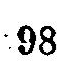98
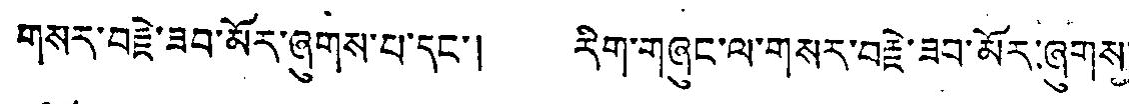གསར་བརྗེ་ཟབ་མོར་ཞུགས་པ་དང་། རིག་གཞུང་ལ་གསར་བརྗེ་ཟབ་མོར་ཞུགས་
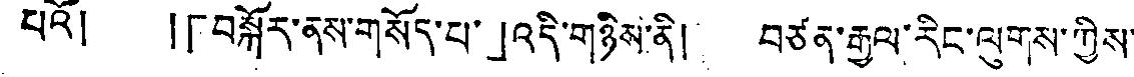པའོ། །「བསྐོར་ནས་གསོད་པ་」འདི་གཉིས་ནི། བཙན་རྒྱལ་རིང་ལུགས་ཀྱིས་
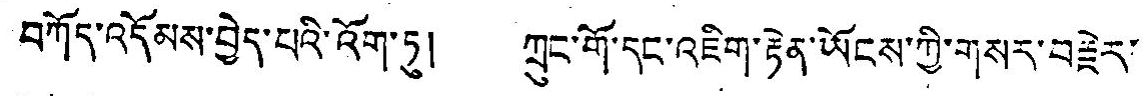བཀོད་འདོམས་བྱེད་པའི་འོག་ཏུ། ཀྲུང་གོ་དང་འཇིག་རྟེན་ཡོངས་ཀྱི་གསར་བརྗེར་
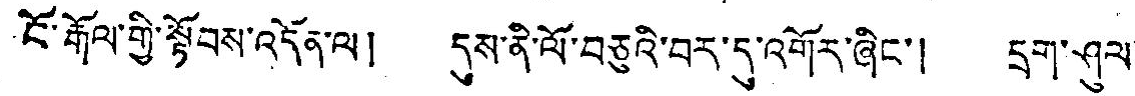ངོ་རྒོལ་གྱི་སྟོབས་འདོན་ལ། དུས་ནི་ལོ་བཅུའི་བར་དུ་འགོར་ཞིང་། དྲག་ཤུལ་
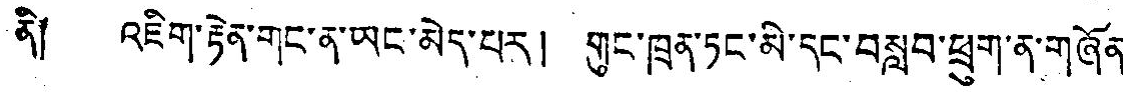ནི། འཇིག་རྟེན་གང་ན་ཡང་མེད་པར། གུང་ཁྲན་ཏང་མི་དང་བསླབ་ཕྲུག་ན་གཞོན་
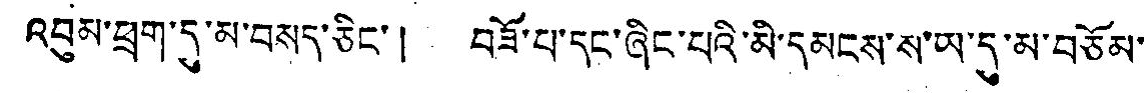འབུམ་ཕྲག་དུ་མ་བསད་ཅིང་། བཟོ་པ་དང་ཞིང་པའི་མི་དམངས་ས་ཡ་དུ་མ་བཅོམ་
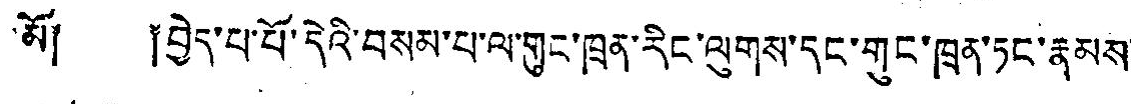མོ། ༐བྱེད་པ་པོ་དེའི་བསམ་པ་ལ་གུང་ཁྲན་རིང་ལུགས་དང་གུང་ཁྲན་ཏང་རྣམས་
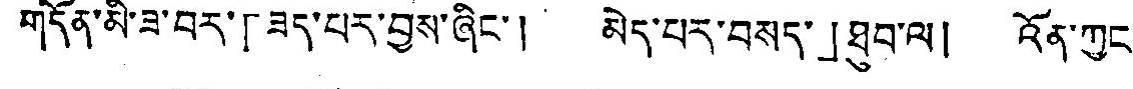གདོན་མི་ཟ་བར་「ཟད་པར་བྱས་ཞིང་། མེད་པར་བསད་」ཐུབ་ལ། འོན་ཀྱང་
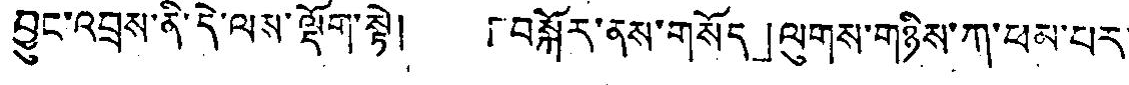བྱུང་འབྲས་ནི་དེ་ལས་ལྡོག་སྟེ། 「བསྐོར་ནས་གསོད」ལུགས་གཉིས་ཀ་ཕམ་པར་
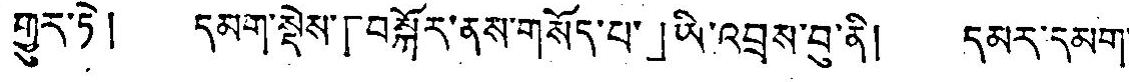གྱུར་ཏེ། དམག་སྡེས་「བསྐོར་ནས་གསོད་པ་」ཡི་འབྲས་བུ་ནི། དམར་དམག་
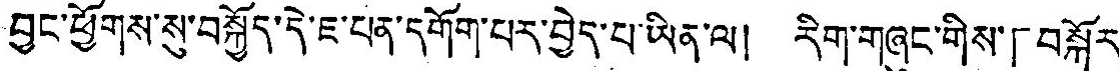བྱང་ཕྱོགས་སུ་བསྐྱོད་དེ་ཇ་པན་དགོག་པར་བྱེད་པ་ཡིན་ལ། རིག་གཞུང་གིས་「བསྐོར་
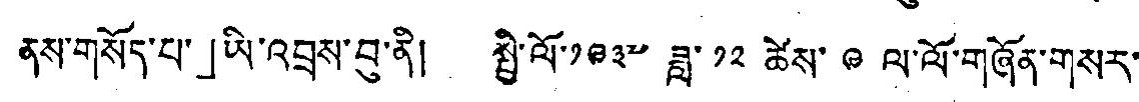ནས་གསོད་པ་」ཡི་འབྲས་བུ་ནི། སྤྱི་ལོ་༡༩༣༧ ཟླ་ ༡༢ ཚེས་ ༩ ལ་ལོ་གཞོན་གསར་
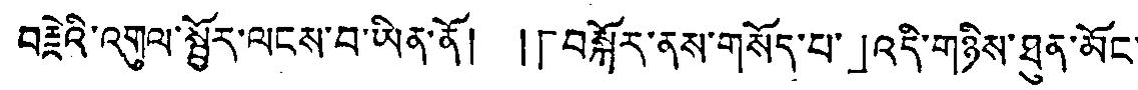བརྗེའི་འགུལ་སྦྱོར་ལངས་བ་ཡིན་ནོ། །「བསྐོར་ནས་གསོད་པ་」འདི་གཉིས་ཐུན་མོང་
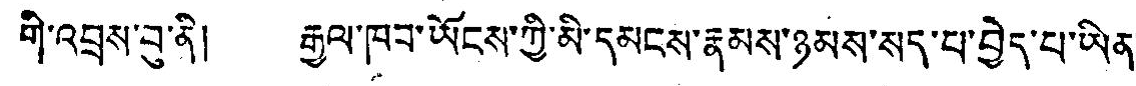གི་འབྲས་བུ་ནི། རྒྱལ་ཁབ་ཡོངས་ཀྱི་མི་དམངས་རྣམས་ཉམས་སད་པ་བྱེད་པ་ཡིན་
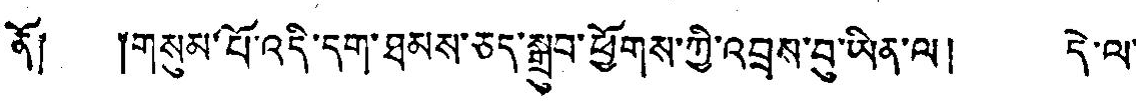ནོ༐ ༐གསུམ་པོ་འདི་དག་ཐམས་ཅད་སྒྲུབ་ཕྱོགས་ཀྱི་འབྲས་བུ་ཡིན་ལ། དེ་ལ་
